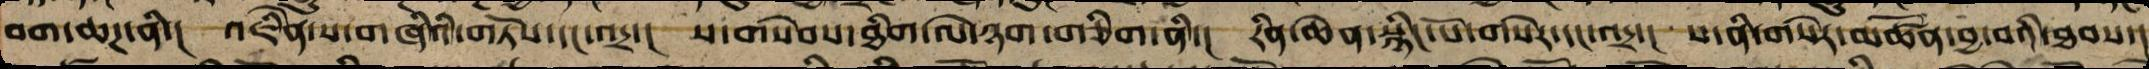བག་ཆཌ་ནི་། འཇིེན་ས་གཞིའི་གཏོས་དང་འདྲ་། ས་གསེབ་ཐིག་ལེ་ཉག་གཅིག་ནི་། རིན་ཆེན་སྙིང་པོ་གསེར་དང་འདྲ་། ས་ནི་གསེར་འཚོན་བྱ་བའི་ཐབས་།
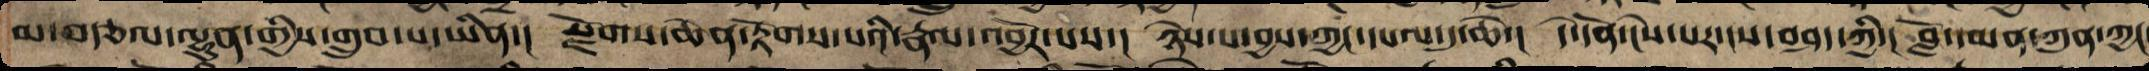མ་བརྩལ་ལྷུན་གྱིས་གྲུབ་པ་ཡིན་། སྫོགས་ཆེན་རྟོགས་པའི་རྣལ་འབྱོར་པས་། ཉེས་པ་བྱས་ཀྱང་དཔལ་དུ་ཆེ་། དེ་དོན་ངེས་པར་ངས་བཤད་ཀྱི་། བློ་དམན་ཀུན་ཀྱང
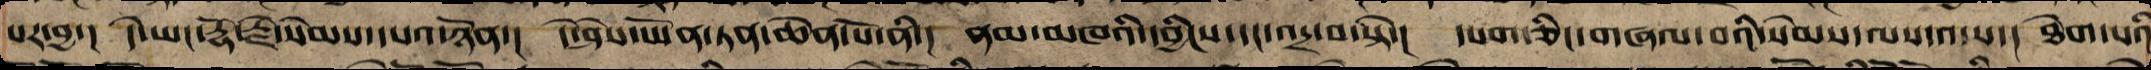པར་བྱ་། དེ་ཡང་རྡོ་རྗེ་སེམས་དཔའ་ཉོན་། དེ་ཤེས་ཡོན་ཏན་ཆེན་པོ་ནི་། ནམ་མཁའི་དབྱིངས་དང་འདྲ་བ་སྟེ་། དཔག་ཅིང་གཞལ་བའི་སེམས་ལས་འདས་། ཐེག་པའི
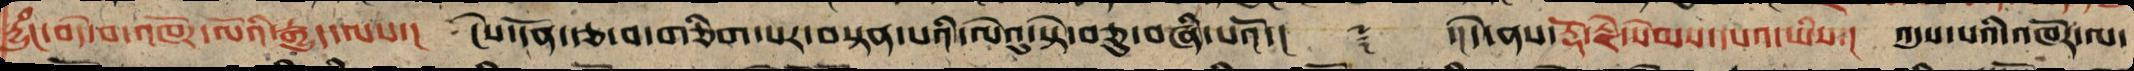རྱུཾང་བདེ་བའི་འཁོར་ལོའི་རྒྱུད་ལས་། ངེས་དོན་རྩ་བ་གཅིག་པར་བསྟན་པའི་ལེའུ་སྟེ་བཅུ་བཞི་པའོ་།། ༈ ་།།དེ་ནས་རྡོ་རྗེ་སེམས་དཔའ་ཡིས་། འདུས་པའི་འཁོར་ལ་
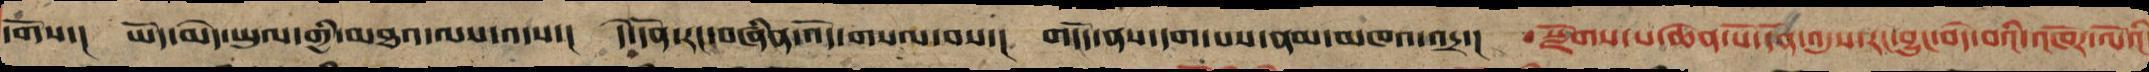དགོས་། ཡོད་མེད་ཡུལ་གྱི་མཐའ་ལས་འདས་། དེ་དོན་རང་བཞིན་འོད་གསལ་བ་། གདོད་ནས་དག་པས་ནམ་མཁའ་འདྲ་། སྫོགས་པ་ཆེན་པོ་དོན་འདུས་རང་བྱུང་བདེ་བའི་འཁོར་ལོའི
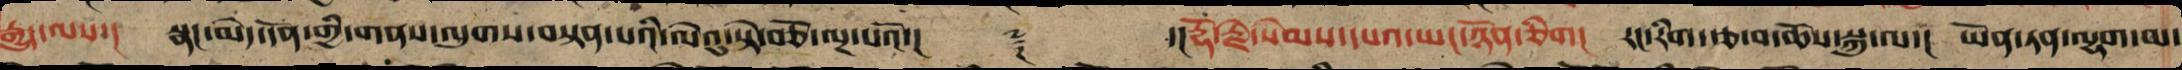རྒྱུད་ལས་། སྣང་མེད་དོན་གྱི་གནས་ལུགས་བསྟན་པའི་ལེའུ་སྟེ་བཅོ་ལྔ་པའོ་།། ༈ ་།།རྡོ་རྗེ་སེམས་དཔའ་ཡང་ཉོན་ཅིག། རང་རིག་རྩ་བ་ཆོས་སྐུ་ལ་། ཡོན་ཏན་ལྷག་མ་
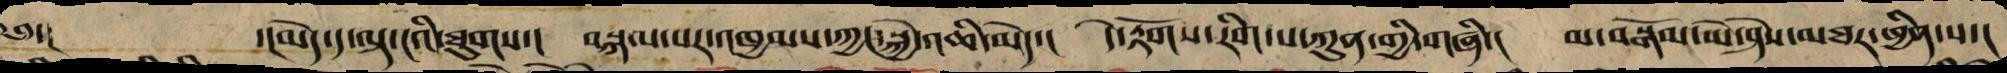༄༅་། ་།མེད་ད་ལྟ་ང་ཡི་ཐུགས་། བསྐལ་པར་འཁྱམས་ཀྱང་སྐྱེ་འཆི་མེད་། དེ་རྟོགས་རིག་པ་ཀུན་གྱི་གཞི་། མ་བསྒོམས་ཡེ་ཤེས་མཐར་ཕྱིན་པ་།
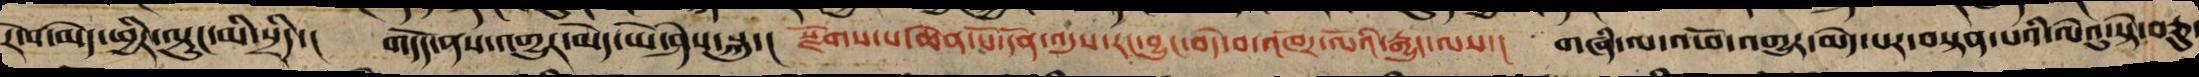རེ་བ་མེད་ཕྱིར་ལྟུང་མི་སྲིད་། གདོད་ནས་འགྱུར་མེད་ཡེ་ཤེས་སྐུ་། སྫོགས་པ་ཆེན་པོ་དོན་འདུས་རང་བྱུང་བདེ་བའི་འཁོར་ལོའི་རྒྱུད་ལས་། གཞི་ལ་འཕོ་འགྱུར་མེད་པར་བསྟན་པའི་ལེའུ་སྟེ་བཅུ་
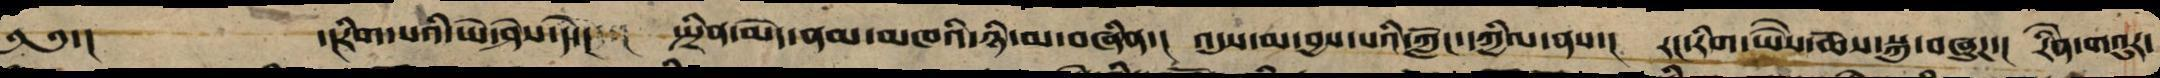༄༄་།     ་།རིག་པའི་ཡེ་ཤེས་དེ་།  སྤྲིན་མེད་ནམ་མཁའི་ཉི་མ་བཞིན་།  འདུས་མ་བྱས་པའི་ཀློང་དཀྱིལ་ནས་།  རང་རིག་ཡེ་ཤེས་ཆོས་སྐུ་བཞུཌ་།  རིཻན་གའུར་
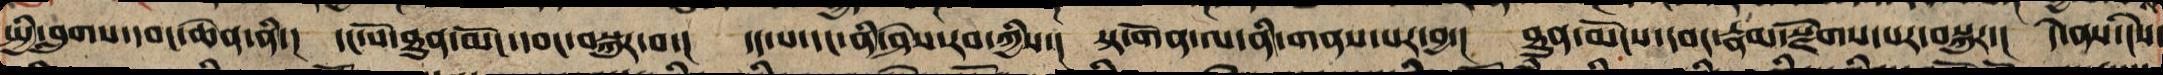སྤྱི་བླུགས་དབང་ཆེན་ནི་།  དང་པོ་ཐུན་མོང་དབང་བསྐུར་བ་།  དད་པ་དང་ནི་ཤེས་རབ་ཀྱིས་།  སྟ་གོན་ལ་ནི་གནས་པར་བྱ་། ཐུན་མོང་དབང་རྣམ་སྫོགས་པར་བསྐུར་།  དེ་ནས་ངེས་
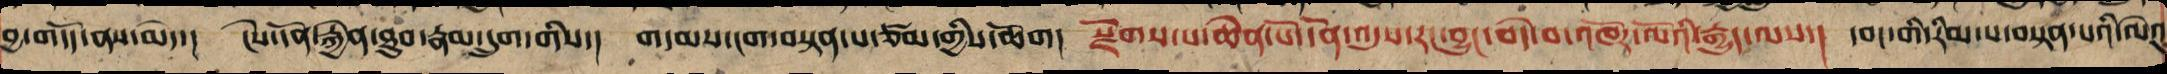བྱ་གདོད་ནས་མེད་། ངེས་དོན་རྐྱེན་ཐུབ་རྣམ་དྲུག་གིས་། གདམས་ངག་བསྟན་པ་ཙམ་གྱིས་ཆོག། སྫོགས་པ་ཆེན་པོ་དོན་འདུས་རང་བྱུང་བདེ་བའི་འཁོར་ལོའི་རྒྱུད་ལས་། དབང་གི་རིམ་པ་བསྟན་པའི་ལེའུ
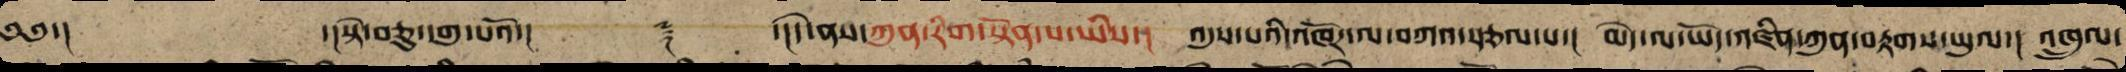༄༅་།  ་།སྟེ་བཅུ་དགུ་པའོ་།།  ༈  །་།དེ་ནས་ཀུན་རིག་སྟོན་པ་ཡིས་། འདུས་པའི་འཁོར་ལ་བཀའ་སྩལ་པ་། མེད་ལ་ཡོད་འཛིན་ཀུན་བརྟགས་ཡུལ་། འཁྲུལ་
